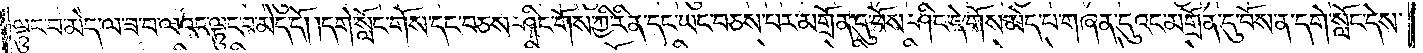ལྟུང་བ་མེད་ལ་ཟ་བ་ལའང་ལྟུང་བ་མེད་དོ། །དགེ་སློང་གོས་དང་བཅས་ཤིང་གོས་ཀྱི་རིན་དང་ཡང་བཅས་པར་མགྲོན་དུ་བོས་ཤིང་དེ་གོས་མེད་པ་གཞན་དུའང་མགྲོན་དུ་བོས་ན་དགེ་སློང་དེས་
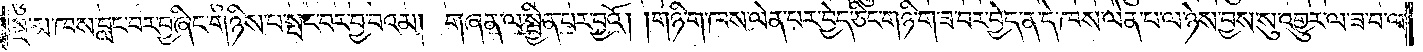སྔ་མ་ཁས་བླང་བར་བྱ་ཞིང་གཉིས་པ་སྤང་བར་བྱ་བའམ། གཞན་ལ་སྦྱིན་པར་བྱའོ། །གཉི་ག་ཁས་ལེན་པར་བྱེད་ཅིང་གཉི་ག་ཟ་བར་བྱེད་ན་དེ་ཁས་ལེན་པ་ལ་ཉེས་བྱས་སུ་འགྱུར་ལ་ཟ་བ་ལ་
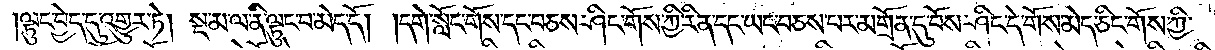ལྟུང་བྱེད་དུ་འགྱུར་ཏེ། སྔ་མ་ལ་ནི་ལྟུང་བ་མེད་དོ། །དགེ་སློང་གོས་དང་བཅས་ཤིང་གོས་ཀྱི་རིན་དང་ཡང་བཅས་པར་མགྲོན་དུ་བོས་ཤིང་དེ་གོས་མེད་ཅིང་གོས་ཀྱི་
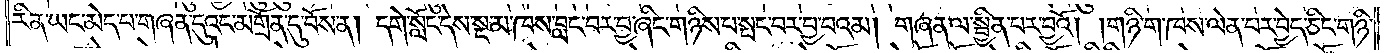རིན་ཡང་མེད་པ་གཞན་དུའང་མགྲོན་དུ་བོས་ན། དགེ་སློང་དེས་སྔ་མ་ཁས་བླང་བར་བྱ་ཞིང་གཉིས་པ་སྤང་བར་བྱ་བའམ། གཞན་ལ་སྦྱིན་པར་བྱའོ། །གཉི་ག་ཁས་ལེན་པར་བྱེད་ཅིང་གཉི་
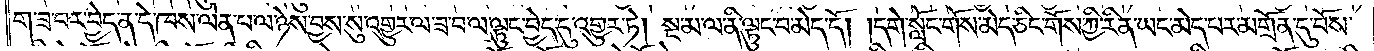ག་ཟ་བར་བྱེད་ན་དེ་ཁས་ལེན་པ་ལ་ཉེས་བྱས་སུ་འགྱུར་ལ་ཟ་བ་ལ་ལྟུང་བྱེད་དུ་འགྱུར་ཏེ། སྔ་མ་ལ་ནི་ལྟུང་བ་མེད་དོ། །དགེ་སློང་གོས་མེད་ཅིང་གོས་ཀྱི་རིན་ཡང་མེད་པར་མགྲོན་དུ་བོས་
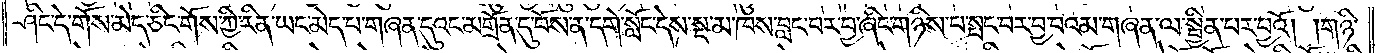ཤིང་དེ་གོས་མེད་ཅིང་གོས་ཀྱི་རིན་ཡང་མེད་པ་གཞན་དུའང་མགྲོན་དུ་བོས་ན་དགེ་སློང་དེས་སྔ་མ་ཁས་བླང་བར་བྱ་ཞིང་གཉིས་པ་སྤང་བར་བྱ་བའམ་གཞན་ལ་སྦྱིན་པར་བྱའོ། །གཉི་
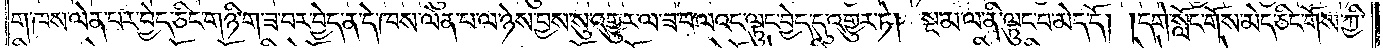ག་ཁས་ལེན་པར་བྱེད་ཅིང་གཉི་ག་ཟ་བར་བྱེད་ན་དེ་ཁས་ལེན་པ་ལ་ཉེས་བྱས་སུ་འགྱུར་ལ་ཟ་བ་ལའང་ལྟུང་བྱེད་དུ་འགྱུར་ཏེ། སྔ་མ་ལ་ནི་ལྟུང་བ་མེད་དོ། །དགེ་སློང་གོས་མེད་ཅིང་གོས་ཀྱི་
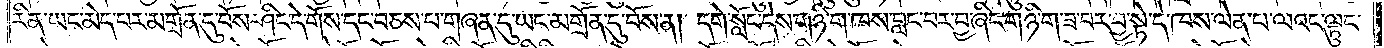རིན་ཡང་མེད་པར་མགྲོན་དུ་བོས་ཤིང་དེ་གོས་དང་བཅས་པ་གཞན་དུ་ཡང་མགྲོན་དུ་བོས་ན། དགེ་སློང་དེས་གཉི་ག་ཁས་བླང་བར་བྱ་ཞིང་གཉི་ག་ཟ་བར་བྱ་སྟེ་དེ་ཁས་ལེན་པ་ལའང་ལྟུང་
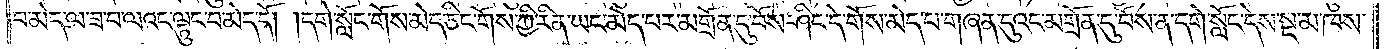བ་མེད་ལ་ཟ་བ་ལའང་ལྟུང་བ་མེད་དོ། །དགེ་སློང་གོས་མེད་ཅིང་གོས་ཀྱི་རིན་ཡང་མེད་པར་མགྲོན་དུ་བོས་ཤིང་དེ་གོས་མེད་པ་གཞན་དུའང་མགྲོན་དུ་བོས་ན་དགེ་སློང་དེས་སྔ་མ་ཁས་
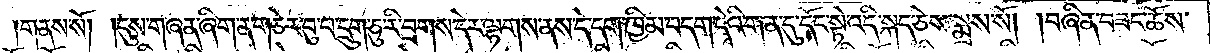གནས་སོ། །དུས་གཞན་ཞིག་ན་གཅེར་བུ་པ་དྲུག་ཅུ་རི་བྲགས་དེར་ལྷགས་ནས་དེ་དག་ཁྱིམ་བདག་དེའི་གན་དུ་དོང་སྟེ་འདི་སྐད་ཅེས་སྨྲས་སོ། །བཞིན་བཟང་ཆོས་
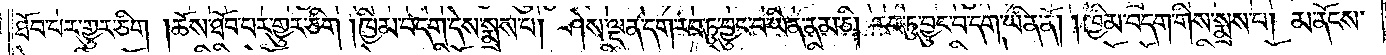ཐོབ་པར་གྱུར་ཅིག །ཆོས་ཐོབ་པར་གྱུར་ཅིག །ཁྱིམ་བདག་དེས་སྨྲས་པ། ཤེས་ལྡན་དག་རབ་ཏུ་བྱུང་བ་ཡིན་ནམ་ཅི། རབ་ཏུ་བྱུང་བ་དག་ཡིན་ནོ། །ཁྱིམ་བདག་གིས་སྨྲས་པ། མ་ནོངས་
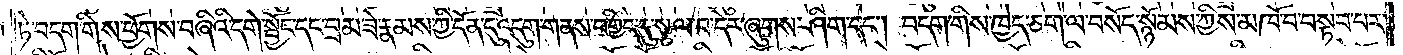ཏེ་བདག་གིས་ཕྱོགས་བཞིའི་དགེ་སྦྱོང་དང་བྲམ་ཟེ་རྣམས་ཀྱི་དོན་དུ་འདུག་གནས་བགྱིད་དུ་སྩལ་བ་དེར་ཞུགས་ཤིག་དང༌། བདག་གིས་ཁྱེད་ཅག་ལ་བསོད་སྙོམས་ཀྱིས་མཁོ་བ་བསྟབ་པར་
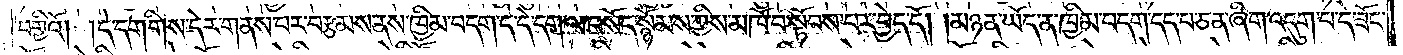བགྱིའོ། །དེ་དག་གིས་དེར་གནས་པར་བརྩམས་ནས་ཁྱིམ་བདག་དེ་དེ་དག་ལ་བསོད་སྙོམས་ཀྱིས་མཁོ་བ་སྟོབས་པར་བྱེད་དོ། །མཉན་ཡོད་ན་ཁྱིམ་བདག་དད་པ་ཅན་ཞིག་འདུག་པ་དེ་ཟོང་
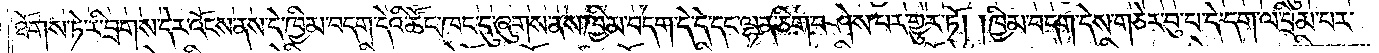ཐོགས་ཏེ་རི་བྲགས་དེར་འོངས་ནས་དེ་ཁྱིམ་བདག་དེའི་ཚོང་ཁང་དུ་ཞུགས་ནས་ཁྱིམ་བདག་དེ་དེ་དང་ལྷན་ཅིག་བཤེས་པར་གྱུར་ཏོ། །ཁྱིམ་བདག་དེས་གཅེར་བུ་པ་དེ་དག་ལ་བྲིམ་པར་
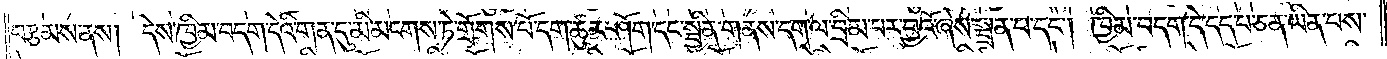བརྩམས་ནས། དེས་ཁྱིམ་བདག་དེའི་གན་དུ་མི་མངགས་ཏེ་གྲོགས་པོ་དག་ཚུར་ཤོག་དང་སྦྱིན་གནས་དག་ལ་བྲིམ་པར་བྱའོ་ཞེས་སྦྲན་པ་དང༌། ཁྱིམ་བདག་དེ་དད་པ་ཅན་ཡིན་པས་
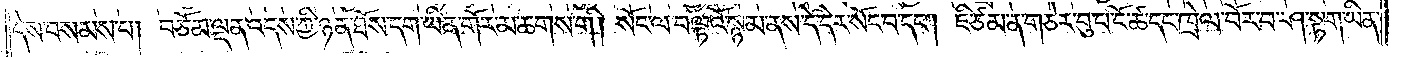དེས་བསམས་པ། བཅོམ་ལྡན་འདས་ཀྱི་ཉན་ཐོས་དག་ཡིན་གོར་མ་ཆགས་གི །སོང་ལ་བལྟའོ་སྙམ་ནས་དེ་དེར་སོང་བ་དང༌། ཇི་ཙམ་ན་གཅེར་བུ་པ་ངོ་ཚ་དང་ཁྲེལ་བོར་བ་ཤ་སྟག་ཡིན་
